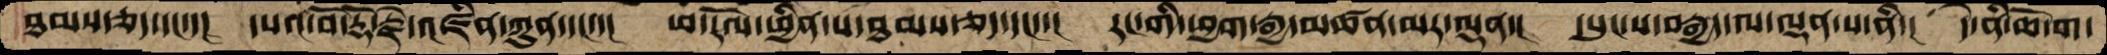ཐམས་ཅད་དང་་།   དཔའ་བོ་རྡོ་རྗེ་འཛིན་ཀུན་དང་་།  ཕ་རོལ་ཕྱིན་པ་ཐམས་ཅད་དང་་།  རང་གི་ཕྱག་རྒྱ་མཚན་མར་ལྡན་།  དཔུང་པ་བརྒྱད་ལ་ལྡན་པ་ནི་།  དེ་ནི་ཆོ་ག་
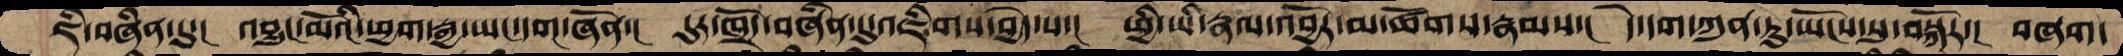ཇི་བཞིན་དུ་།  འབྱུང་མོའི་ཕྱག་རྒྱ་ཡང་དག་ཞོན་།  དུར་ཁྲོད་བཞིན་དུ་འཇིགས་བྱེད་པ་།  ཕྱི་ཡི་རྣལ་འབྱོར་མ་ཚོགས་རྣམས་།  དེ་དག་ཀུན་ཏུ་ཡོངས་སུ་བསྐོར་།  བཞག་
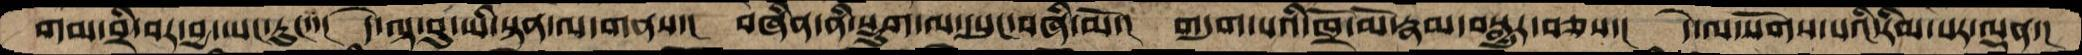གམ་བྲི་བར་བྱ་ཡང་རུང་་།  དེ་ལྟ་བུ་ཡི་སྟན་ལ་གནས་།  བཞིན་ནི་སྡུག་ལ་དཔུང་བཞི་མོ་།  གདུག་པའི་ཁྲོ་མོ་རྣམ་བསྒྱུར་བཅས་།  དེ་ལ་སོགས་པའི་རིམ་པར་ལྡན་།
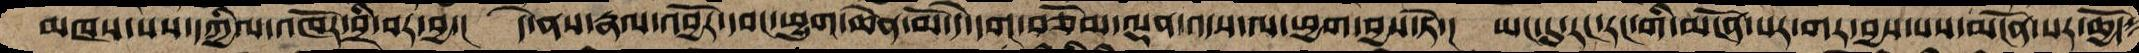མཁས་པས་དཀྱིལ་འཁོར་བྲི་བར་བྱ་།  དེ་ནས་རྣལ་འབྱོར་དབང་ཕྱུག་ཆེན་མོ་དེ་དག་བཅོམ་ལྡན་འདས་ལ་ཕྱག་བྱས་ཏེ་།  ཡང་དུ་རང་རང་གི་མངོན་པར་གར་བྱས་པས་མངོན་པར་ཆྱོད་
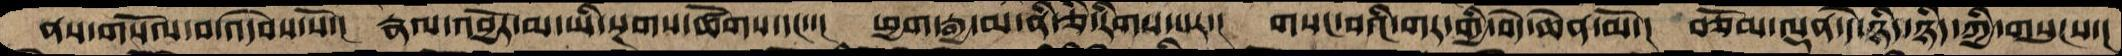ནས་གསོལ་བ་འདེབས་སོ་།   རྣལ་འབྱོར་མ་ཡི་སྔགས་ཚོགས་དང་་།  ཕྱག་རྒྱ་མ་ནི་ཅི་རིགས་པར་།  གསང་བའི་གར་གྱི་བདེ་ཆེན་མོ་།  བཅོམ་ལྡ་དེ་ཉིད་ཉིད་ཀྱི་གསུངས་།
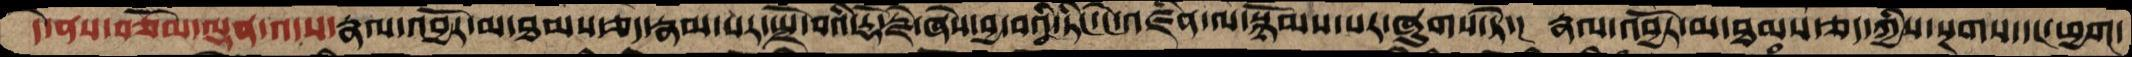དེ་ནས་བཅོམ་ལྡན་འདས་རྣལ་འབྱོར་མ་ཐམས་ཅད་རྣམ་པར་སྤྲོ་བའི་རྡོ་རྗེ་ཞེས་བྱ་བའི་ཏིང་ངེ་འཛིན་ལ་སྙོམས་པར་ཞུགས་ཏེ་།  རྣལ་འབྱོར་མ་ཐམས་ཅད་ཀྱིས་སྔགས་དང་ཕྱག་
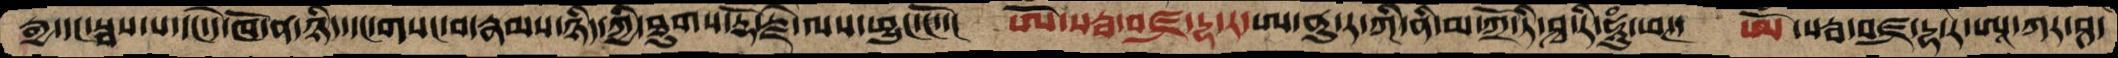རྒྱ་དང་སྦས་པ་དང་དེ་ཁོ་ན་ཉིད་དང་གསང་བ་རྣམས་ཉིད་ཀྱི་ཐུགས་རྡོ་རྗེ་ལས་ཕྱུང་ངོ་་།  ཨོ་སརྦ་བཛྲ་དྷ་ར་ཨ་ནུ་ར་ཀི་ནི་མ་ཀྲོ་ཏི་ཤྭ་རི་ཧཱུཾ་ཕཊ་   ཨོཾ་སརྦ་བཛྲ་དྷ་ར་ཨཱ་ཀར་ཤ་
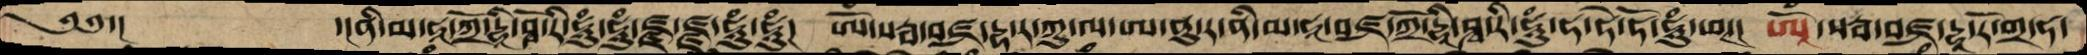༄༅་།          ་།ནི་མ་ཧཱ་ཀྲོ་དྷི་ཤྭོ་རི་ཧཱུཾ་ཧཱུཾ་ཛྫ་ཛྫ་ཧཱུཾ་ཧཱུཾ།   ཨོཾ་སརྦ་བཛྲ་དྷ་ར་ཀུ་ལ་ཨ་ནུ་ར་ནི་མ་ཧཱ་བཛྲ་ཀྲོ་དྷཱི་ཤྭ་རི་ཧཱུཾཧ་ཧེ་ཧོ་ཧཱུཾ་ཕཊ།  ཨོཾ་སརྦ་བཛྲ་དྷཱ་ར་གྲོ་ཧ་
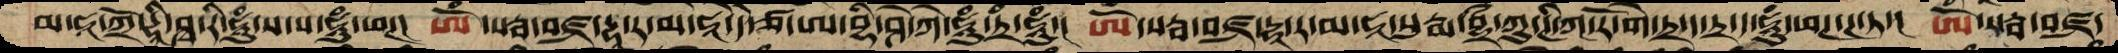མ་ཀཱ་ཀྲོ་དྷཱི་ཤྭ་རི་ཧཱུཾ་ས་ས་ཧཱུཾ་ཕཊ།   ཨོཾ་སརྦ་བཛྲ་དྷ་ར་མ་ཧཱ་དེ་ཙ་ཨ་བྷི་ཤེ་ཀེ་ཧཱུཾ་ཏྲཾ་ཧཱུཾ་།   ཨོཾ་སརྦ་བཛྲ་དྷཱ་ར་མ་ཧཱ་སུརྨ་བྷྲྀ་ཀུ་ཊི་ཀ་རོ་གེ་ཏྲ་ད་ཏྲ་ད་ཧཱུཾ་ཕཊ་ཊ་ཏ་།  ཨོཾ་སརྦ་བཛྲ་
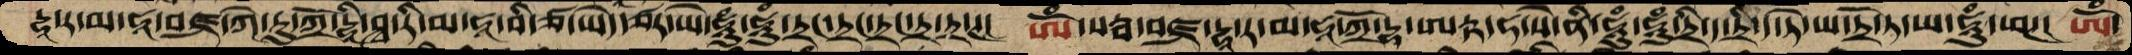དྷཱ་ར་མ་ཧཱ་བཛྲ་ཀེ་རུ་ཀྲོ་དྷཱི་ཤྭ་རི་མ་ཧཱ་བི་ཙ་ཡེད་ཙར་ཡེ་ཧཱུཾ་ཧཱུཾ་ཏྲང་ཏྲང་ཏྲང་ཏྲང་ཏྲ་ཏྲ་ཊ།  ཨོཾ་སརྦ་བཛྲ་དྷཱ་ར་མ་ཧཱ་ཀྲོ་དྷ་ཨརྟ་ཧ་སེ་ནི་ཧཱུཾ་ཧཱུཾ་ཏྲི་དཏྲི་ད་ཏྲི་ཏེ་ཡ་ཏྲོ་ཏ་ཡ་ཧཱུཾ་ཕཊ། ཨོཾ་
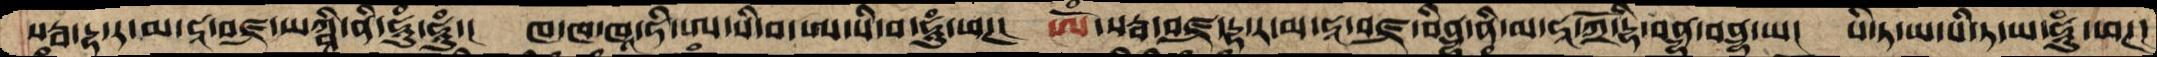སརྦ་རྷ་ར་མ་ཧཱ་བཛྲ་ཡཀྴི་ནི་ཧཱུཾ་ཧཱུཾ་།  ཁ་ཁ་ཁཱ་ཧི་ཨ་སི་བ་ཨ་སི་བ་ཧཱུཾ་ཕཊ།  ཨོཾ་སརྦ་བཛྲ་དྷ་ར་མ་ཧཱ་བཛྲ་བིནྡྷ་ནཱི་མ་ཧཱ་ཀྲོ་དྷི་བནྡྷ་བནྡྷ་ཡ།  པི་ཏ་ཡ་པི་ཏ་ཡ་ཧཱུཾ་ཕཊ།
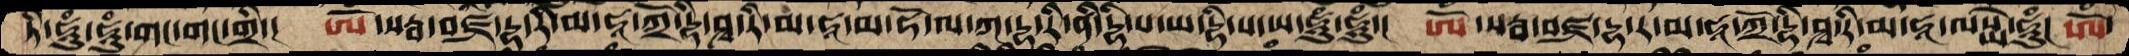ཏི་ཧཱུཾ་ཧཱུཾ་གང་གང་གྲི་།  ཨོཾ་སརྦ་བཛྲི་དྷ་ཏི་མ་ཧཱ་ཀྲོ་དྷི་ཤྭ་རི་མ་ཧཱ་མ་ཧོ་ལ་ཀ་དྷ་རི་ནི་དྷི་པ་ཡ་དྷི་པ་ཡ་ཧཱུཾ་ཧཱུཾ་།  ཨོཾ་སརྦ་བཛྲ་དྷ་ར་མ་ཧཱ་ཀྲོ་དྷི་ཤྭ་རི་མ་ཧཱ་ལསྻེ་ཧཱུཾ།  ཨོཾ་
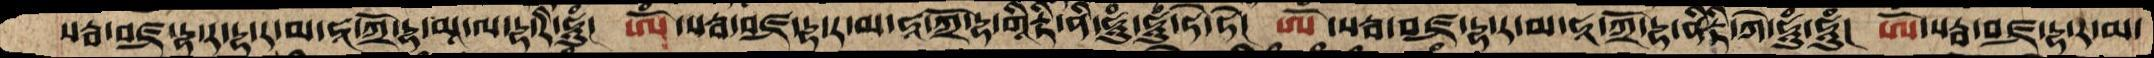སརྦ་བཛྲ་དྷ་ར་དྷ་ར་མ་ཧཱ་ཀྲོ་དྷ་མཱ་ལ་དྷ་རི་ཧཱུཾ་།  ཨོཾ་སརྦ་བཛྲ་དྷ་ར་མ་ཧཱ་ཀྲོ་དྷ་གཱིརྟི་ནི་ཧཱུཾ་ཧཱུཾ་ཧེ་ཧེ།  ཨོཾ་སརྦ་བཛྲ་དྷ་ར་མ་ཧཱ་ཀྲོ་དྷ་ནིརྟི་ཀེ་ཧཱུཾ་ཧཱུཾ།  ཨོཾ་སརྦ་བཛྲ་དྷ་ར་མ་
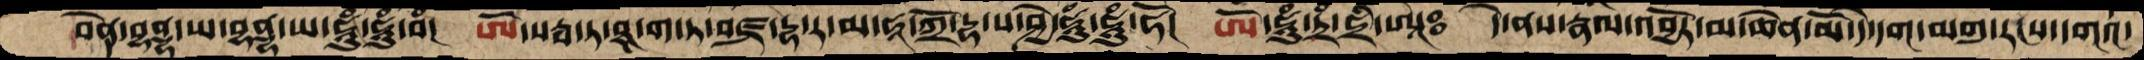བནྡེ་བྷནྡྷ་ཡ་བྷནྡྷ་ཡ་ཧཱུཾ་ཧཱུཾ་བཾ།  ཨོཾ་སརྦ་ཏ་ཐཱ་ག་ཏ་བཛྲ་དྷ་ར་མ་ཧཱ་ཀྲོ་དྷ་ས་ཤྱེ་ཧཱུཾ་ཧཱུཾ་ཧོ།  ཨོཾ་ཧཱུཾ་ཏྲཾ་ཧྲི་ཨཱཿ  དེ་ནས་རྣལ་འབྱོར་མ་ཆེན་མོ་དེ་དག་མགུ་རངས་དགའ་
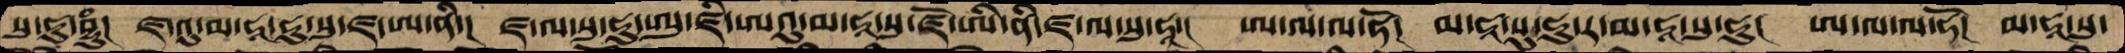སུ་ཧུ་བྷུཾ།  ཛ་འུ་མ་ཧཱ་ཧུ་སུ་ཛ་ཨ་ནི་།  ཛ་ལ་སུ་ཧུ་ཨུ་ཛི་ཨའུ་མ་ཧཱ་པུ་ཛོ་ཨི་ནི་ཛ་ལ་སུ་ཧཱ་།  ཨ་ལ་ལ་ཧོ།  མ་ཧཱ་པུ་ཧུ་ར་མ་ཧཱ་སུ་ཧུ།  ཨ་ལ་ལ་ཧོ།  མ་ཧཱ་སུ་
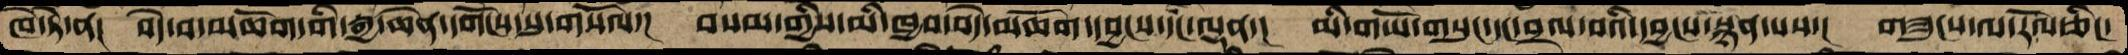ཁེ་ཏེ་ན།  བདེ་བ་མཆོག་གི་རྒྱ་ཆེན་དགོངས་སུ་གསོལ་།  བསམ་གྱིས་མི་ཁྱབ་བདེ་མཆོག་དབྱངས་དང་ལྡན་།  མི་གཡོ་གསུང་དང་བྲལ་བའི་དབྱངས་སྙན་པས་།  གཟུངས་ལ་རོལ་ཅིང་
